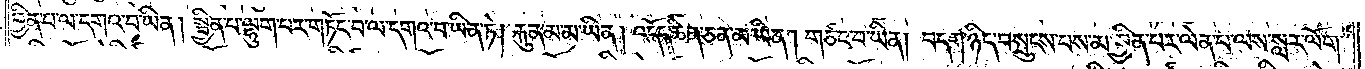བྱིན་པ་ལ་དགའ་བ་ཡིན། སྦྱིན་པ་ལྷུག་པར་གཏོང་བ་ལ་དགའ་བ་ཡིན་ཏེ། རྐུན་མ་ཡིན། འདོད་ཆེན་ཅན་མ་ཡིན། གཙང་བ་ཡིན། བདག་ཉིད་བསྲུངས་པས་མ་བྱིན་པར་ལེན་པ་ལས་སླར་ལོག་
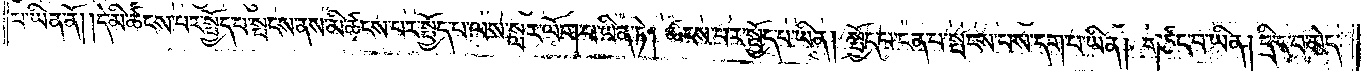པ་ཡིན་ནོ། །དེ་མི་ཚངས་པར་སྤྱོད་པ་སྤངས་ནས་མི་ཚངས་པར་སྤྱོད་པ་ལས་སླར་ལོག་པ་ཡིན་ཏེ། ཚངས་པར་སྤྱོད་པ་ཡིན། སྤྱོད་པ་ངན་པ་སྤངས་པས་དག་པ་ཡིན། གཙང་བ་ཡིན། དྲི་ང་བ་མེད་
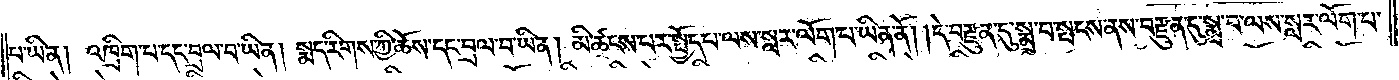པ་ཡིན། འཁྲིག་པ་དང་བྲལ་བ་ཡིན། སྨད་རིགས་ཀྱི་ཆོས་དང་བྲལ་བ་ཡིན། མི་ཚངས་པར་སྤྱོད་པ་ལས་སླར་ལོག་པ་ཡིན་ནོ། །དེ་བརྫུན་དུ་སྨྲ་བ་སྤངས་ནས་བརྫུན་དུ་སྨྲ་བ་ལས་སླར་ལོག་པ་
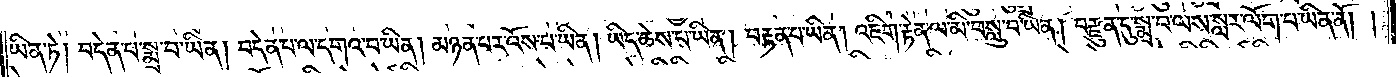ཡིན་ཏེ། བདེན་པ་སྨྲ་བ་ཡིན། བདེན་པ་ལ་དགའ་བ་ཡིན། མཉན་པར་འོས་པ་ཡིན། ཡིད་ཆེས་པ་ཡིན། བརྟན་པ་ཡིན། འཇིག་རྟེན་ལ་མི་བསླུ་བ་ཡིན། བརྫུན་དུ་སྨྲ་བ་ལས་སླར་ལོག་པ་ཡིན་ནོ། །
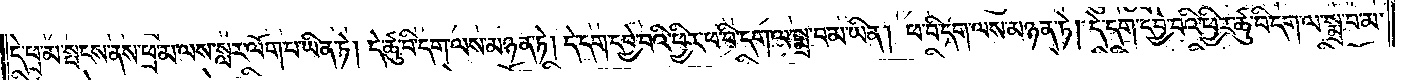དེ་ཕྲ་མ་སྤངས་ནས་ཕྲ་མ་ལས་སླར་ལོག་པ་ཡིན་ཏེ། དེ་ཚུ་བི་དག་ལས་མཉན་ཏེ། དེ་དག་དབྱེ་བའི་ཕྱིར་ཕ་བི་དག་ལ་སྨྲ་བ་མ་ཡིན། ཕ་བི་དག་ལས་མཉན་ཏེ། དེ་དག་དབྱེ་བའི་ཕྱིར་ཚུ་བི་དག་ལ་སྨྲ་བ་མ་
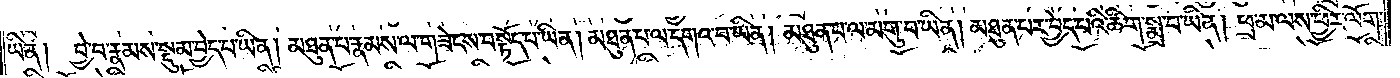ཡིན། བྱེ་བ་རྣམས་སྡུམ་བྱེད་པ་ཡིན། མཐུན་པ་རྣམས་ལ་གཟེངས་བསྟོད་པ་ཡིན། མཐུན་པ་ལ་དགའ་བ་ཡིན། མཐུན་པ་ལ་མགུ་བ་ཡིན། མཐུན་པར་བྱེད་པའི་ཚིག་སྨྲ་བ་ཡིན། ཕྲ་མ་ལས་ཕྱིར་ལོག་
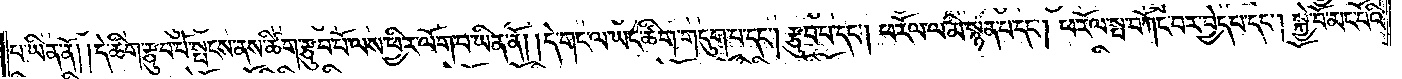པ་ཡིན་ནོ། །དེ་ཚིག་རྩུབ་པོ་སྤངས་ནས་ཚིག་རྩུབ་པོ་ལས་ཕྱིར་ལོག་པ་ཡིན་ནོ། །དེ་གང་ལ་ཡང་ཚིག་གདུག་པ་དང༌། རྩུབ་པ་དང༌། ཕ་རོལ་ལ་མི་སྙན་པ་དང༌། ཕ་རོལ་སྤ་བཀོང་བར་བྱེད་པ་དང༌། སྐྱེ་བོ་མང་པོའི་
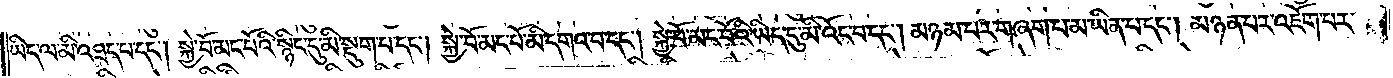ཡིད་ལ་མི་འཐད་པ་དང༌། སྐྱེ་བོ་མང་པོའི་སྙིང་དུ་མི་སྡུག་པ་དང༌། སྐྱེ་བོ་མང་པོ་མི་དགའ་བ་དང༌། སྐྱེ་བོ་མང་པོའི་ཡིད་དུ་མི་འོང་བ་དང༌། མཉམ་པར་གཞག་པ་མ་ཡིན་པ་དང༌། མཉན་པར་འཇོག་པར་
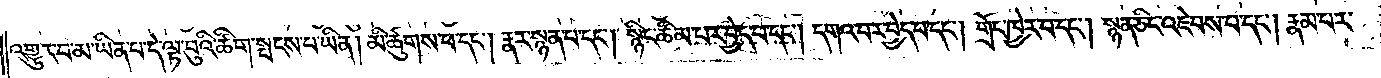འགྱུར་བ་མ་ཡིན་པ་དེ་ལྟ་བུའི་ཚིག་སྤངས་པ་ཡིན། མི་ཚུགས་པ་དང༌། རྣར་སྙན་པ་དང༌། སྙིང་ཚིམ་པར་བྱེད་པ་དང༌། དགའ་བར་བྱེད་པ་དང༌། གྲོང་ཁྱེར་བ་དང༌། སྙན་ཅིང་འཇེབས་པ་དང༌། རྣམ་པར་
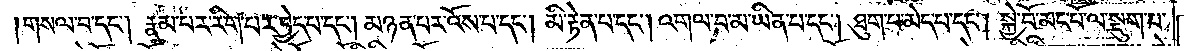།གསལ་བ་དང༌། རྣམ་པར་རིག་པར་བྱེད་པ་དང༌། མཉན་པར་འོས་པ་དང༌། མི་རྟེན་པ་དང༌། འགལ་བ་མ་ཡིན་པ་དང༌། ཐུག་པ་མེད་པ་དང༌། སྐྱེ་བོ་མང་པོ་ལ་སྡུག་པ་
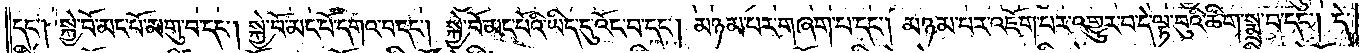དང༌། སྐྱེ་བོ་མང་པོ་མགུ་བ་དང༌། སྐྱེ་བོ་མང་པོ་དགའ་བ་དང༌། སྐྱེ་བོ་མང་པོའི་ཡིད་དུ་འོང་བ་དང༌། མཉམ་པར་གཞག་པ་དང༌། མཉམ་པར་འཇོག་པར་འགྱུར་བ་དེ་ལྟ་བུའི་ཚིག་སྨྲ་བ་དང༌། དེ་
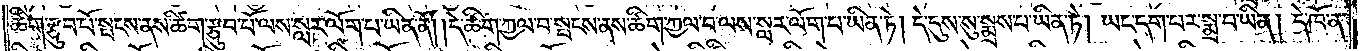ཚིག་རྩུབ་པོ་སྤངས་ནས་ཚིག་རྩུབ་པོ་ལས་སླར་ལོག་པ་ཡིན་ནོ། །དེ་ཚིག་ཀྱལ་བ་སྤངས་ནས་ཚིག་ཀྱལ་བ་ལས་སླར་ལོག་པ་ཡིན་ཏེ། དེ་དུས་སུ་སྨྲས་པ་ཡིན་ཏེ། ཡང་དག་པར་སྨྲ་བ་ཡིན། དེ་ཁོ་ན་
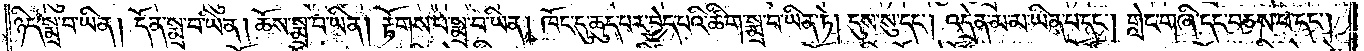ཉིད་སྨྲ་བ་ཡིན། དོན་སྨྲ་བ་ཡིན། ཆོས་སྨྲ་བ་ཡིན། རྟོགས་པ་སྨྲ་བ་ཡིན། ཁོང་དུ་ཆུད་པར་བྱེད་པའི་ཚིག་སྨྲ་བ་ཡིན་ཏེ། དུས་སུ་དང༌། འདྲེན་མ་མ་ཡིན་པ་དང༌། གླེང་གཞི་དང་བཅས་པ་དང༌།
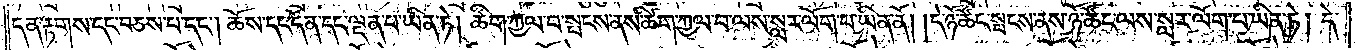དན་རྟགས་དང་བཅས་པ་དང༌། ཆོས་དང་དོན་དང་ལྡན་པ་ཡིན་ཏེ། ཚིག་ཀྱལ་བ་སྤངས་ནས་ཚིག་ཀྱལ་བ་ལས་སླར་ལོག་པ་ཡིན་ནོ། །དེ་ཉོ་ཚོང་སྤངས་ནས་ཉོ་ཚོང་ལས་སླར་ལོག་པ་ཡིན་ཏེ། དེ་
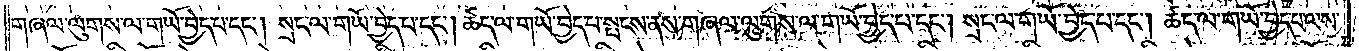གཞལ་ལུགས་ལ་གཡོ་བྱེད་པ་དང༌། སྲང་ལ་གཡོ་བྱེད་པ་དང༌། ཚད་ལ་གཡོ་བྱེད་པ་སྤངས་ནས་གཞལ་ལུགས་ལ་གཡོ་བྱེད་པ་དང༌། སྲང་ལ་གཡོ་བྱེད་པ་དང༌། ཚད་ལ་གཡོ་བྱེད་པ་ལས་
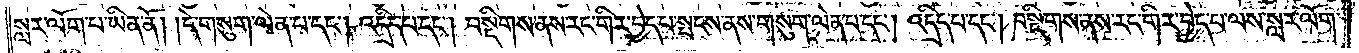སླར་ལོག་པ་ཡིན་ནོ། །དེ་གསུག་ལེན་པ་དང༌། འདྲིད་པ་དང༌། བསྡིགས་ནས་རང་གིར་བྱེད་པ་སྤངས་ནས་གསུག་ལེན་པ་དང༌། འདྲིད་པ་དང༌། བསྡིགས་ནས་རང་གིར་བྱེད་པ་ལས་སླར་ལོག་
